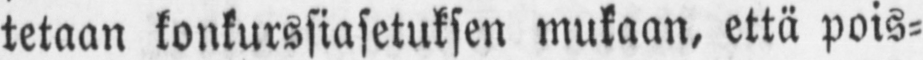tetaan konkurssiasetuksen mukaan, että pois-
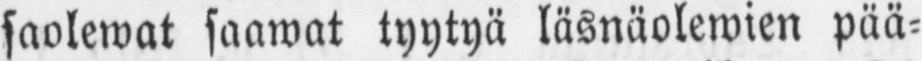saolewat saawat tyytyä läsnäolewien pää-
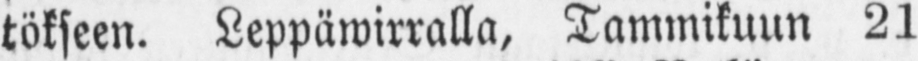tökseen. Leppäwirralla, Tammikuun 21
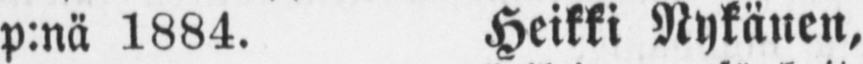p:nä 1884. Heikki Nykänen,
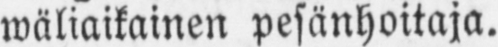wäliaikainen pesänhoitaja.
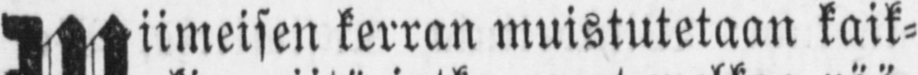Wiimeisen kerran muistutetaan kaik-
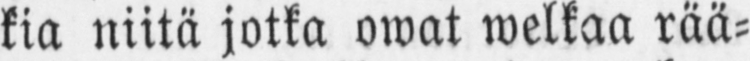kia niitä jotka owat welkaa rää-
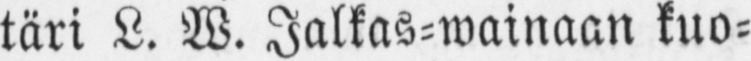täri L. W. Jalkas-wainaan kuo-
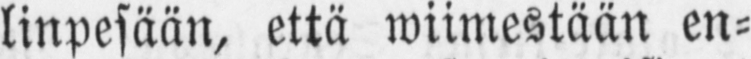linpesään, että wiimestään en-
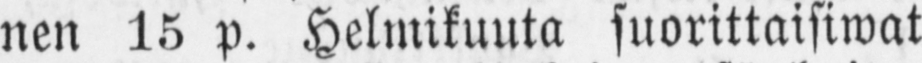nen 15 p. Helmikuuta suorittaisiwat
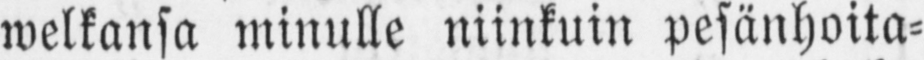welkansa minulle niinkuin pesänhoita-
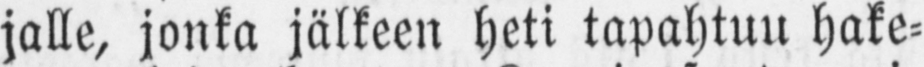jalle, jonka jälkeen heti tapahtuu hake-
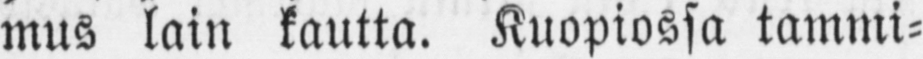mus lain kautta. Kuopiossa tammi-
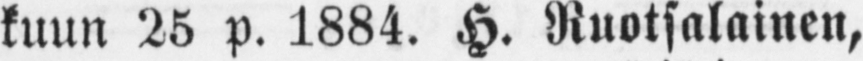kuun 25 p. 1884. H. Ruotsalainen,
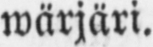wärjäri.
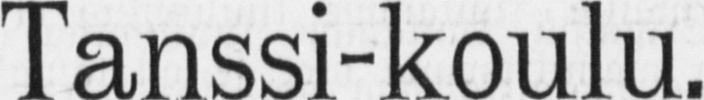Tanssi-koulu.
